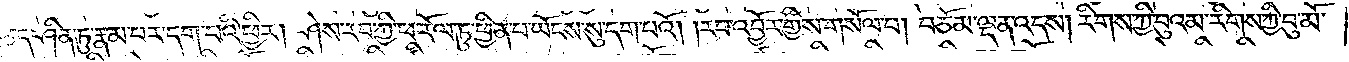ཅད་ཤིན་ཏུ་རྣམ་པར་དག་པའི་ཕྱིར། ཤེས་རབ་ཀྱི་ཕ་རོལ་ཏུ་ཕྱིན་པ་ཡོངས་སུ་དག་པའོ། །རབ་འབྱོར་གྱིས་གསོལ་པ། བཅོམ་ལྡན་འདས། རིགས་ཀྱི་བུའམ་རིགས་ཀྱི་བུ་མོ་
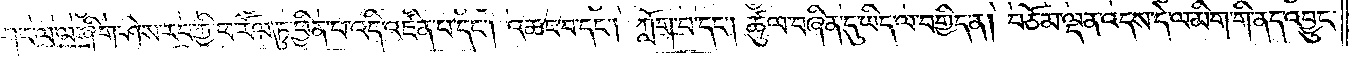གང་ལ་ལ་ཞིག་ཤེས་རབ་ཀྱི་ཕ་རོལ་ཏུ་ཕྱིན་པ་འདི་འཛིན་པ་དང༌། འཆང་བ་དང༌། ཀློག་པ་དང༌། ཚུལ་བཞིན་དུ་ཡིད་ལ་བགྱིད་ན། བཅོམ་ལྡན་འདས་དེ་ལ་མིག་གི་ནད་འབྱུང་
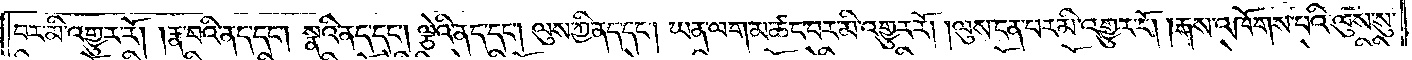བར་མི་འགྱུར་རོ། །རྣ་བའི་ནད་དང༌། སྣའི་ནད་དང༌། ལྕེའི་ནད་དང༌། ལུས་ཀྱི་ནད་དང༌། ཡན་ལག་མ་ཚང་བར་མི་འགྱུར་རོ། །ལུས་ངན་པར་མི་འགྱུར་རོ། །རྒས་འཁོགས་པའི་ལུས་སུ་
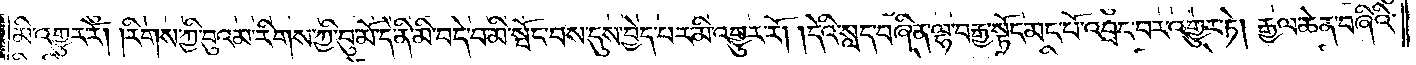མི་འགྱུར་རོ། །རིགས་ཀྱི་བུའམ་རིགས་ཀྱི་བུ་མོ་དེ་ནི་མི་བདེ་པ་མི་སྤོང་བས་དུས་བྱེད་པར་མི་འགྱུར་རོ། །དེའི་སླད་བཞིན་ལྷ་བརྒྱ་སྟོང་མང་པོ་འབྲང་བར་འགྱུར་ཏེ། རྒྱལ་ཆེན་བཞིའི་
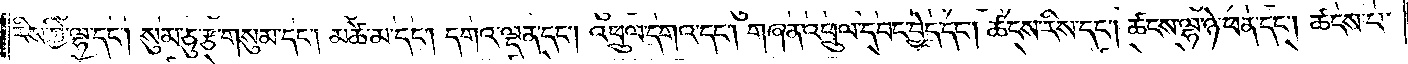རིས་ཀྱི་ལྷ་དང༌། སུམ་ཅུ་རྩ་གསུམ་དང༌། མཚེ་མ་དང༌། དགའ་ལྡན་དང༌། འཕྲུལ་དགའ་དང༌། གཞན་འཕྲུལ་དབང་བྱེད་དང༌། ཚངས་རིས་དང༌། ཚངས་ལྷ་ཉེ་ཕན་དང༌། ཚངས་པ་
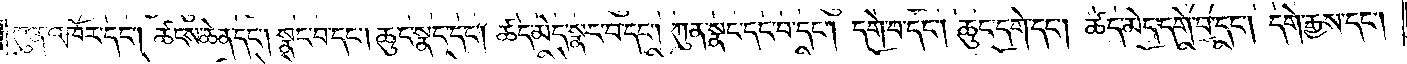ཀུན་འཁོར་དང༌། ཚངས་ཆེན་དང༌། སྣང་བ་དང༌། ཆུང་སྣང་དང༌། ཚད་མེད་སྣང་བ་དང༌། ཀུན་སྣང་དང་བ་དང༌། དགེ་བ་དང༌། ཆུང་དགེ་དང༌། ཚད་མེད་དགེ་བ་དང༌། དགེ་རྒྱས་དང༌།
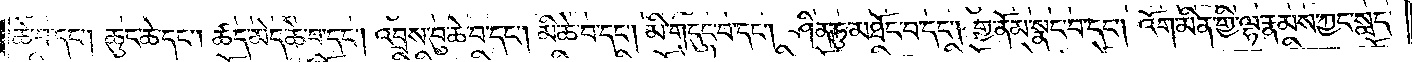ཆེ་བ་དང༌། ཆུང་ཆེ་དང༌། ཚད་མེད་ཆེ་བ་དང༌། འབྲས་བུ་ཆེ་བ་དང༌། མི་ཆེ་བ་དང༌། མི་གདུང་བ་དང༌། ཤིན་ཏུ་མཐོང་བ་དང༌། གྱ་ནོམ་སྣང་བ་དང༌། འོག་མིན་གྱི་ལྷ་རྣམས་ཀྱང་སླད་
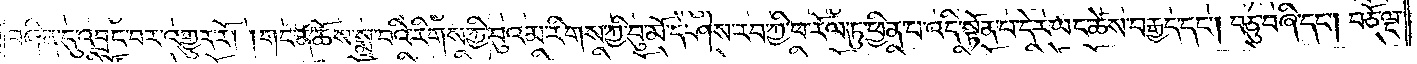བཞིན་དུ་འབྲང་བར་འགྱུར་རོ། །གང་ན་ཆོས་སྨྲ་བའི་རིགས་ཀྱི་བུའམ་རིགས་ཀྱི་བུ་མོ་དེ་ཤེས་རབ་ཀྱི་ཕ་རོལ་ཏུ་ཕྱིན་པ་འདི་སྟོན་པ་དེར་ཡང་ཚེས་བརྒྱད་དང༌། བཅུ་བཞི་དང༌། བཅོ་ལྔ་
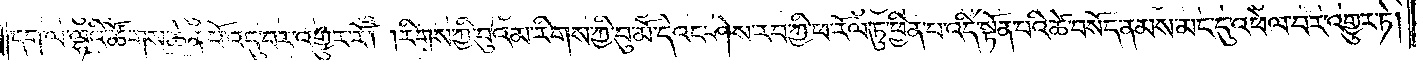དག་ལ་ལྷའི་ཚོགས་ཆེན་པོ་འདུ་བར་འགྱུར་རོ། །རིགས་ཀྱི་བུའམ་རིགས་ཀྱི་བུ་མོ་དེའང་ཤེས་རབ་ཀྱི་ཕ་རོལ་ཏུ་ཕྱིན་པ་འདི་སྟོན་པའི་ཚེ་བསོད་ནམས་མང་དུ་འཕེལ་བར་འགྱུར་ཏེ།
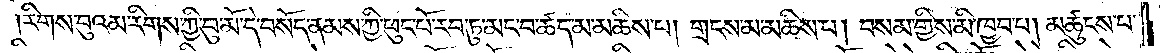རིགས་བུའམ་རིགས་ཀྱི་བུ་མོ་དེ་བསོད་ནམས་ཀྱི་ཕུང་པོ་རབ་ཏུ་མང་བ་ཚད་མ་མཆིས་པ། གྲངས་མ་མཆིས་པ། བསམ་གྱིས་མི་ཁྱབ་པ། མཚུངས་པ་
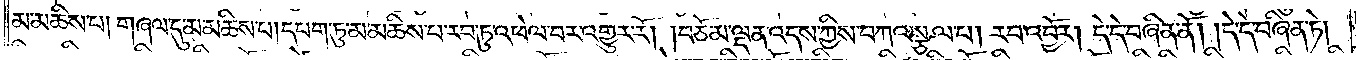མ་མཆིས་པ། གཞལ་དུ་མ་མཆིས་པ།དཔག་ཏུ་མ་མཆིས་པ་རབ་ཏུ་འཕེལ་བར་འགྱུར་རོ། །བཅོམ་ལྡན་འདས་ཀྱིས་བཀའ་སྩལ་པ། རབ་འབྱོར། དེ་དེ་བཞིན་ནོ། །དེ་དེ་བཞིན་ཏེ།
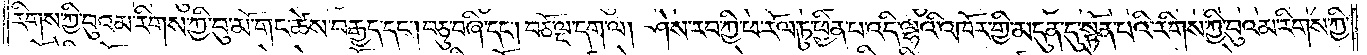རིགས་ཀྱི་བུའམ་རིགས་ཀྱི་བུ་མོ་གང་ཚེས་བརྒྱད་དང༌། བཅུ་བཞི་དང༌། བཅོ་ལྔ་དག་ལ། ཤེས་རབ་ཀྱི་ཕ་རོལ་ཏུ་ཕྱིན་པ་འདི་ལྷའི་འཁོར་གྱི་མདུན་དུ་སྟོན་པའི་རིགས་ཀྱི་བུའམ་རིགས་ཀྱི་
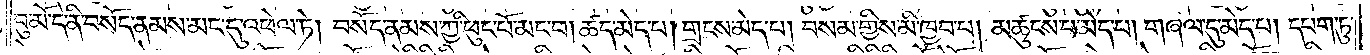བུ་མོ་དེ་ནི་བསོད་ནམས་མང་དུ་འཕེལ་ཏེ། བསོད་ནམས་ཀྱི་ཕུང་པོ་མང་བ། ཚད་མེད་པ། གྲངས་མེད་པ། བསམ་གྱིས་མི་ཁྱབ་པ། མཚུངས་པ་མེད་པ། གཞལ་དུ་མེད་པ། དཔག་ཏུ་
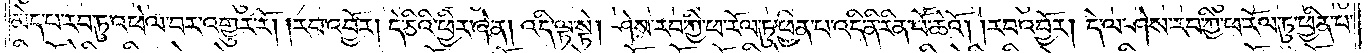མེད་པ་རབ་ཏུ་འཕེལ་བར་འགྱུར་རོ། །རབ་འབྱོར། དེ་ཅིའི་ཕྱིར་ཞེ་ན། འདི་ལྟ་སྟེ། ཤེས་རབ་ཀྱི་ཕ་རོལ་ཏུ་ཕྱིན་པ་འདི་ནི་རིན་པོ་ཆེའོ། །རབ་འབྱོར། དེ་ལ་ཤེས་རབ་ཀྱི་ཕ་རོལ་ཏུ་ཕྱིན་པ་
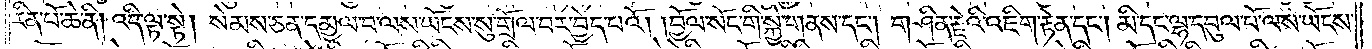རིན་པོ་ཆེ་ནི། འདི་ལྟ་སྟེ། སེམས་ཅན་དམྱལ་བ་ལས་ཡོངས་སུ་གྲོལ་བར་བྱེད་པའོ། །བྱོལ་སོང་གི་སྐྱེ་གནས་དང༌། གཤིན་རྗེའི་འཇིག་རྟེན་དང༌། མི་དང་ལྷ་དབུལ་པོ་ལས་ཡོངས་
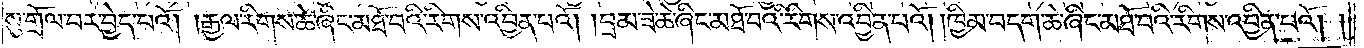སུ་གྲོལ་བར་བྱེད་པའོ། །རྒྱལ་རིགས་ཆེ་ཞིང་མཐོ་བའི་རིགས་འབྱིན་པའོ། །བྲམ་ཟེ་ཆེ་ཞིང་མཐོ་བའི་རིགས་འབྱིན་པའོ། །ཁྱིམ་བདག་ཆེ་ཞིང་མཐོ་བའི་རིགས་འབྱིན་པའོ། །
